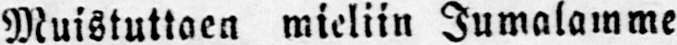Muistuttaen mieliin Jumalamme
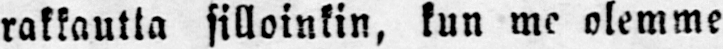rakkautta silloinkin, kun me olemme
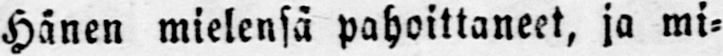Hänen mielensä pahoittaneet, ja mi-
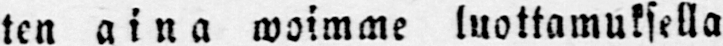ten aina -woimme luottamuksella
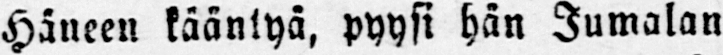Häneen kääntyä, pyysi hän Jumalan
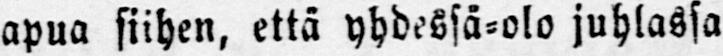apua siihen, että yhdessä-olo juhlassa
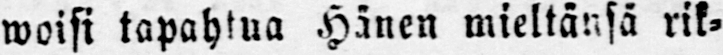woisi tapahtua Hänen mieltänsä rik-
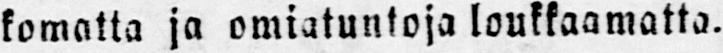komatta ja omiatuntoja loukkaamatta.
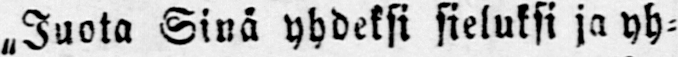„Juota Sinä yhdeksi sieluksi ja yh-
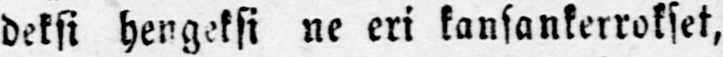deksi hengeksi ne eri kansankerrokset,
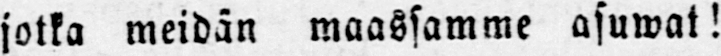jotka meidän maassamme asuwat!
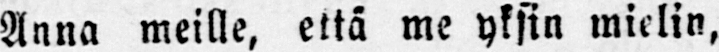Anna meille, että me yksin mielin,
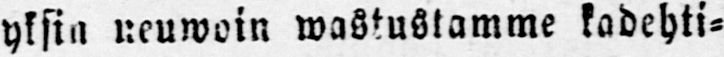yksin neuwoin wastustamme kadehti-
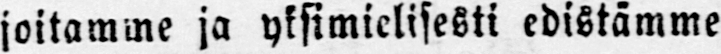joitamme ja yksimielisesti edistämme
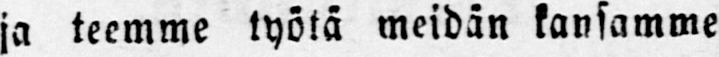ja teemme työtä meidän kansamme
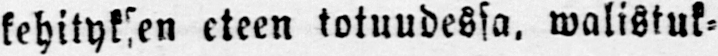kehityksen eteen totuudessa, walistuk-
